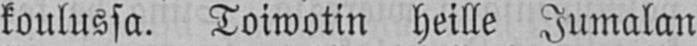koulussa. Toiwotin heille Jumalan
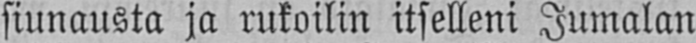siunausta ja rukoilin itselleni Jumalan
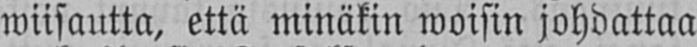wiisautta, että minäkin woisin johdattaa
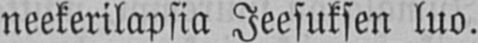neekerilapsia Jeesuksen luo.
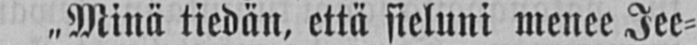„ Minä tiedän, että sieluni menee Jee-
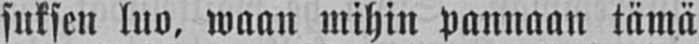suksen luo, waan mihin pannaan tämä
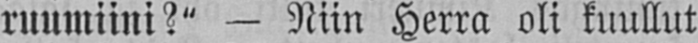ruumiini?" — Niin Herra oli kuullut
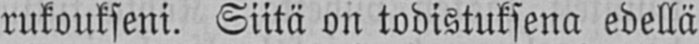rukoukseni. Siitä on todistuksena edellä
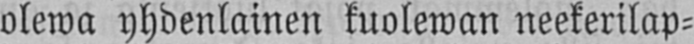olewa yhdenlainen kuolewan neekerilap-
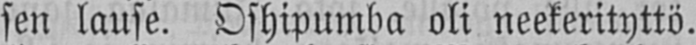sen lause. Oshipumba oli neekerityttö.
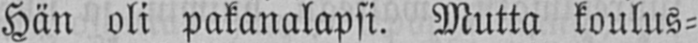Hän oli pakanalapsi. Mutta koulus-
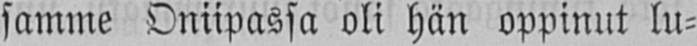samme Oniipassa oli hän oppinut lu-
